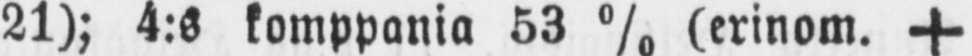21); 4:s komppania 53 % (erinom. +
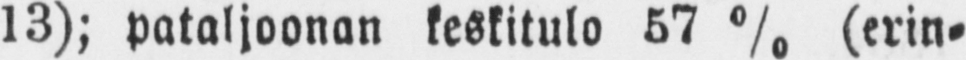13); pataljoonan keskitulo 57 % (erin-
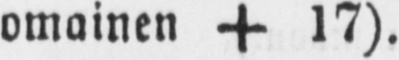omainen + 17).
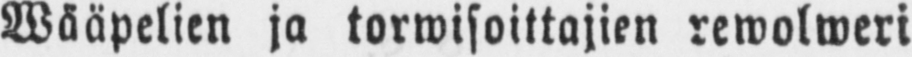Wääpelien ja torwisoittajien rewolweri
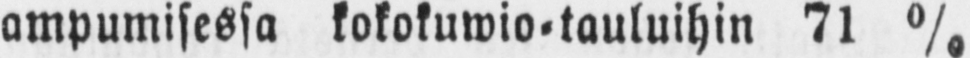ampumisessa kokokuwio-tauluihin 71 %
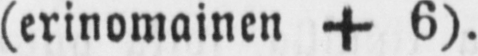(erinomainen + 6).
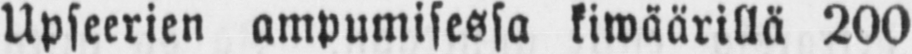Upseerien ampumisessa kiwäärillä 200
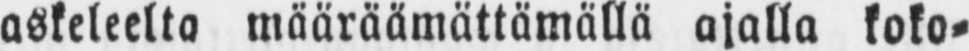askeleelta määräämättämällä ajalla koko-
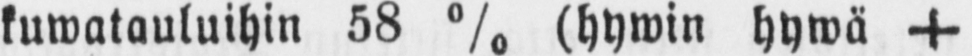kuwatauluihin 58 % (hywin hywä +
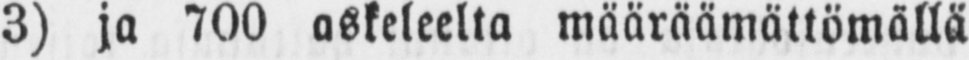3) ja 700 askeleelta määräämättömällä
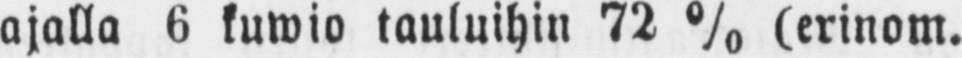ajalla 6 kuwio tauluihin 72 % (erinom.
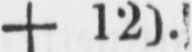+ 12).
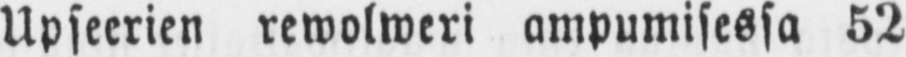Upseerien rewolweri ampumisessa 52
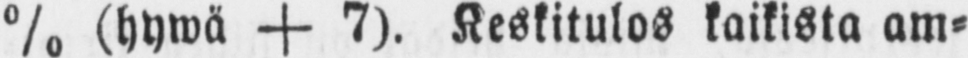% (hywä + 7). Keskitulos kaikista am-
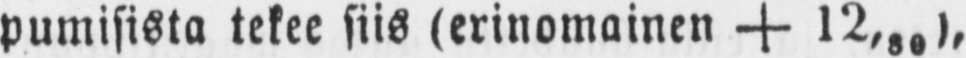pumisista tekee siis (erinomainen + 12,se),
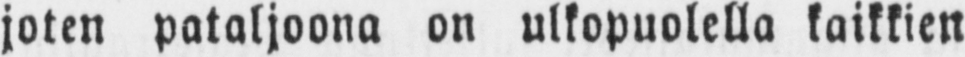joten pataljoona on ulkopuolella kaikkien
